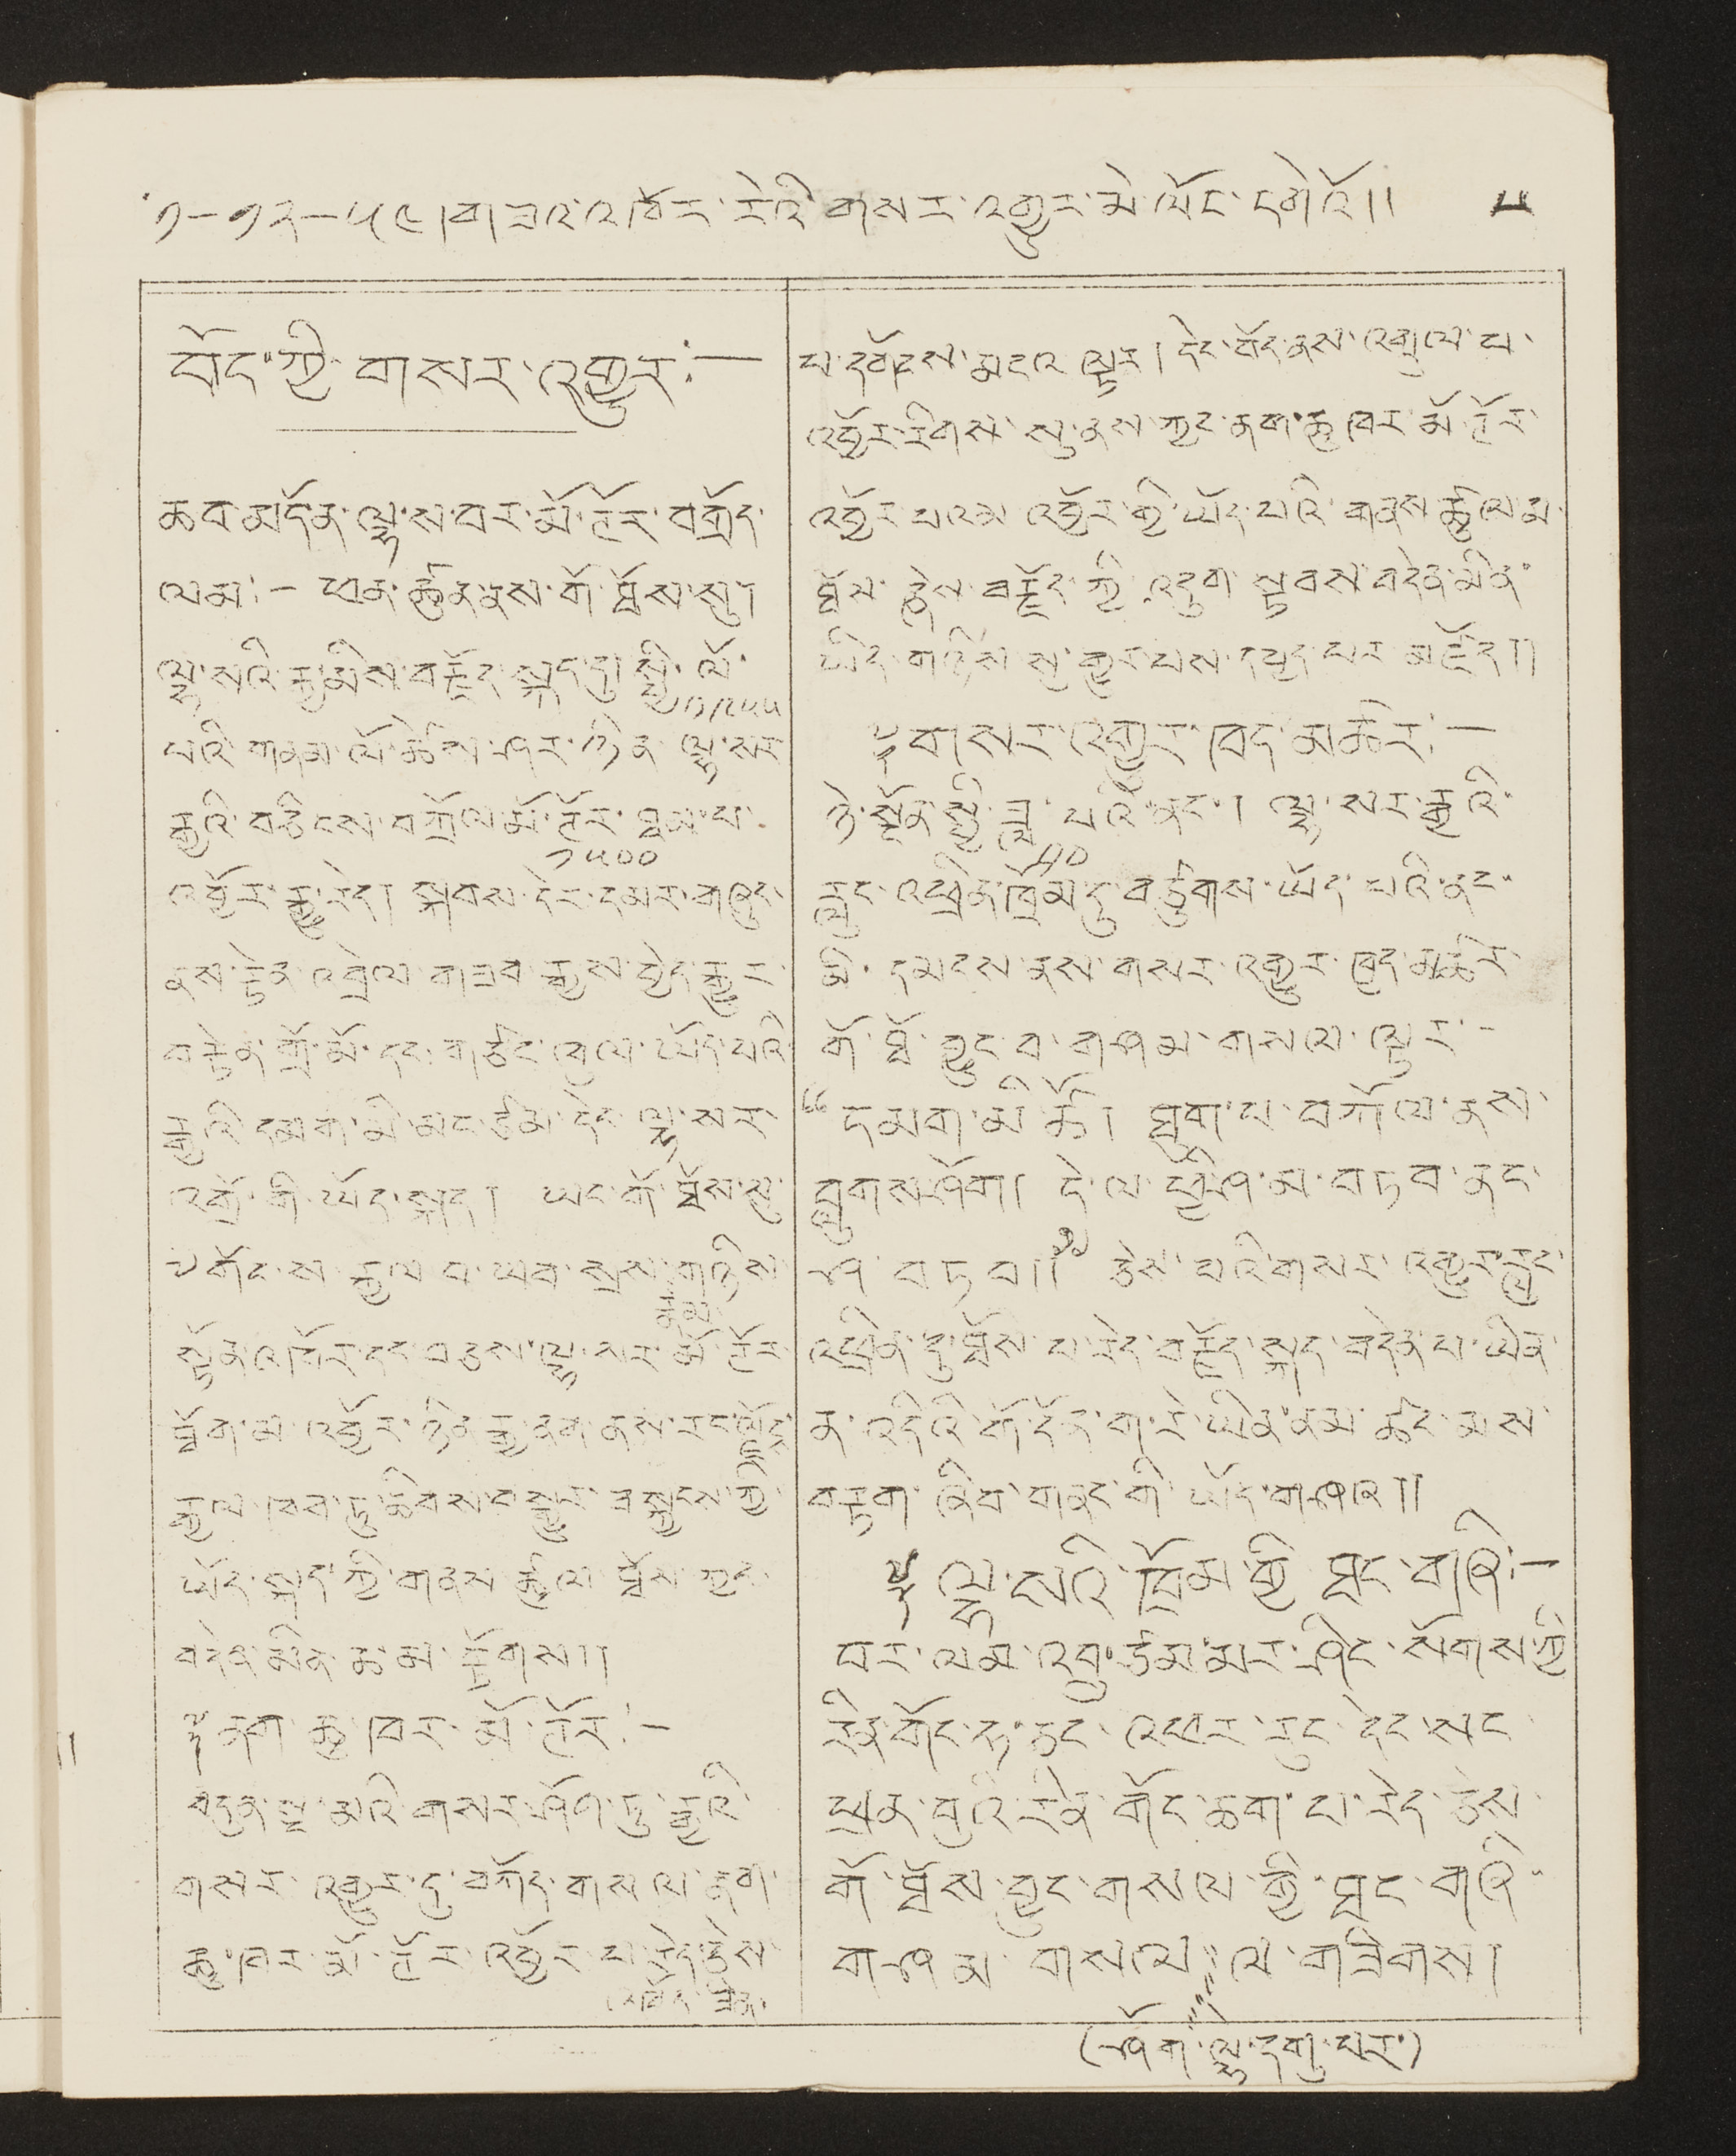༡-༡༢-༥༤།གཟའ་འཁོར་རེའི་གསར་འགྱུར་མེ་ལོང་དགེའོ།། ༥
བོད་ཀྱི་གསར་འགྱུར:—
ཆབ་མདོན་ལྷ་ས་བར་མོ་ཊོར་བགྲོད་
ལམ་:—ཕན་ཚུལ་བས་གོ་ཐོས་སུ་
ལྷ་སའི་རྒྱ་མིས་བརྗོད་སྐད་དུ་སྤྱི་ལོ་
༡༩༥༥
པའི་གནམ་ལོ་ཚེས་ཤར་ཉིན་ལྷ་སར་
རྒྱའི་བཅིངས་བཀྲོལ་མོ་ཊོར་
༡༥༠༠
ཐམ་པ་
འབྱོར་རྒྱ་རེད། སྐབས་དེར་དམར་གཞུས
ནས་རྟེན་འབྲེལ་གཟབ་རྒྱས་བྱེད་རྒྱུར་
བརྟེན་གྲོ་མོ་དང་གཙང་ཁུལ་ཡོད་པའི་
རྒྱའི་མི་དམག་མི་མང་ཙམ་དེང་ལྷ་སར་
འགྲོ་གི་ཡོད་སྐད། ཡང་གོ་ཐོས་སུ་
༸གོང་ས་རྒྱལ བ་ཡབ་སྲས་
རྣམ་
གཉིས
སྟོན་འཁོར་དང་བཅས་ལྷ་སར་མོ་ཊོར་
ཐོག་མ་འབྱོར་ཉིན་རྒྱ་ནག་ནས་རང་སྗོངྶ་
རྒྱལ་ཁབ་ཏུ་ཆིབས་བསྒྱུར་བསྐྱངས་ཀྱི་
ཡོད་སྐབས་ཀྱི་གནས་ཚུལ ཐོས་ཀྱང་
བདེན་མིན་ཆ་མ་རྟོགས།།
༈ ནག་རྒྱ་ཁར་མོ་ཊོར:—
བདུན་སྔ་མའི་གསར་ཤོག་ཏུ་རྒྱའི་
གསར་འགྱུར་དུ་བཀོད་གསལ་ནག་
ཆུ་ཁར་མོ་ཊོར་འབྱོར་པ་རེད་ཅེས་
འཁོན་ཟིན་
པ་དགོངས་མངའ་ལྟར། དེང་བོད་ནས་འགྲུལ་པ་
འབྱོར་རིགས་སུ་ནས་ཀྱང་ནག་ཆུ ཁར་མོ་ཊོར་
འབྱོར་པའམ་འབྱོར་གྱི་ཡོད་པའི་གནས་ཚུལ་མ་
ཐོས་ཅེས་བརྗོད་ཀྱི་འདུག་སྟབས་བདེན་མིན་
ཡིད་གཉིས་སུ་གྱུར་པས་དཔྱད་པར མཛོད།།
༈གསར་འགྱུར་ཁད་མཚར:—
ཉེ་སྔོན་སྤྱི་ཟླ་
༡༠
པའི་ནང་། ལྷ་སར་རྒྱའི་
རླུང་འཕྲིན་ཁྲོམ་དུ་བཙུགས་ཡོད་པའི་ནང་
མི་དམངས་ནས་གསར་འགྱུར་ཁྱུད་མཆིར་
གོ་ཐོ་བྱུང་བ་གཤམ་གསལ་ལྟར་
"དམག་མི་ཚོ། ཐུག་པ་བཀོལ་ནས་
བླུགས་ཤོག།། དེ་ལ་ཕྱི་ཤ་མ་བཏབ་ནང་
ཤ་བཏབ།།" ཅེས་པའི་གསར་འགྱུར་རླུང་
འཕྲིན་དུ་ཐོས་པ་རེད་བརྗོད་སྐད་བདེན་པ་ཡིན་
ན་འདིའི་གོ་དོན་ག་རེ་ཡིན་ནམ་ཚང་མས་
བརྟག་ཞིབ་གནང་གི་ཡོད་གཤའ།།
༈ ལྷ་སའི་ཁྲོམ་གྱི ཐང་གཞི:—
བར་ལམ་འབྲུ་ཙམ་མར་ཤིང་སོགས་ཀྱི
རིན་གོང་ཧ་ཅང་འཕར་རུང་དེང་སང་
ཕྲན་བུའི་རིང་གོང་ཆག་པ་རེད་ཅེས་
གོ་ཐོས་བྱུང་གསལ་ཀྱི་ཐང་གཞི་
གཤམ་གསལ་
ལ་གཟིགས།
( ཤོག་ལྷེ་དགུ་པར་ )
